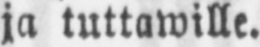ja tuttawille.
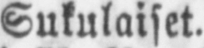Sukulaiset.
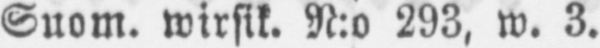Suom. wirsit. N:o 293. w. 3.
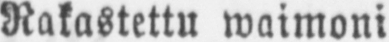Rakastettu waimoni
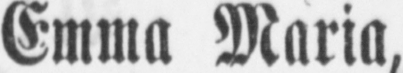Emma Maria,
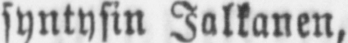syntysin Jalkanen,
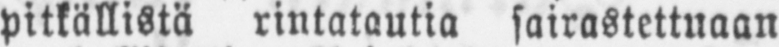pitkällistä rintatautia sairastettuaan
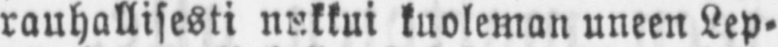rauhallisesti nukkui kuoleman uneen Lep-
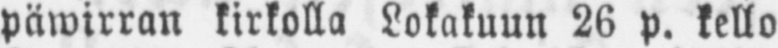päwirran kirkolla Lokakuun 26 p. kello
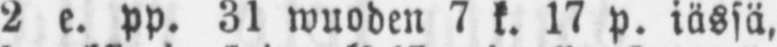2 e. pp. 31 wuoden 7 k. 17 p. iässä,
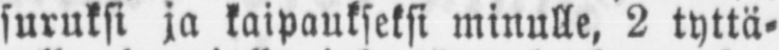suruksi ja kaipaukseksi minulle. 2 tyttä-
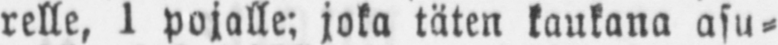relle, 1 pojalle: joka täten kaukana asu-
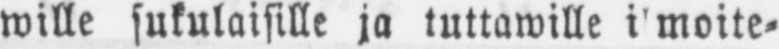wille sukulaisille ja tuttawille ilmoite-
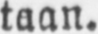taan.
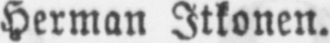Herman Itkonen.
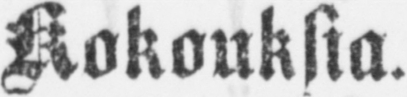Kokouksia.
